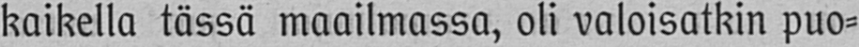kaikella tässä maailmassa, oli valoisatkin puo-
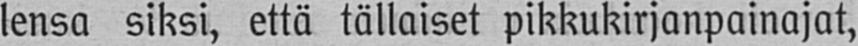lensa siksi, että tällaiset pikkukirjanpainajat,
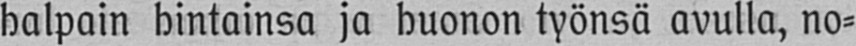halpain hintainsa ja huonon työnsä avulla, no-
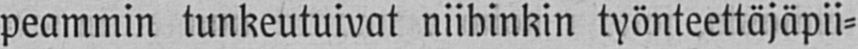peammin tunkeutuivat niihinkin työnteettäjäpii-
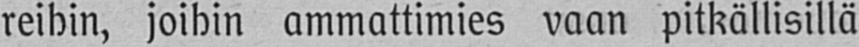reihin, joihin ammattimies vaan pitkällisillä
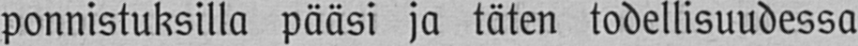ponnistuksilla pääsi ja täten todellisuudessa
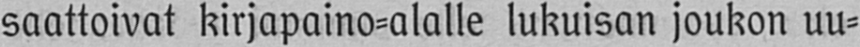saattoivat kirjapaino-alalle lukuisan joukon uu-
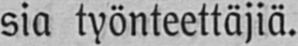sia työnteettäjiä.
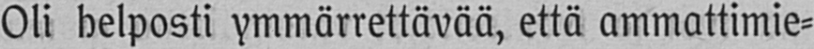Oli helposti ymmärrettävää, että ammattimie-
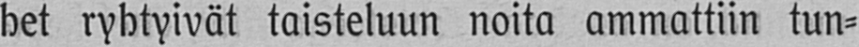het ryhtyivät taisteluun noita ammattiin tun-
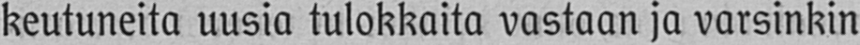keutuneita uusia tulokkaita vastaan ja varsinkin
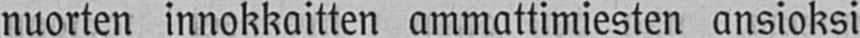nuorten innokkaitten ammattimiesten ansioksi
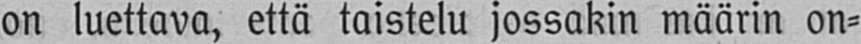on luettava, että taistelu jossakin määrin on-
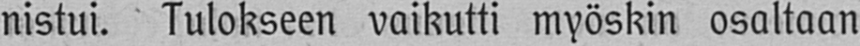nistui. Tulokseen vaikutti myöskin osaltaan
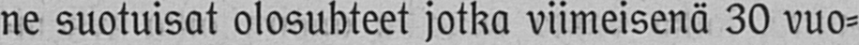ne suotuisat olosuhteet jotka viimeisenä 30 vuo-
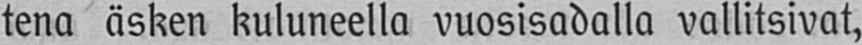tena äsken kuluneella vuosisadalla vallitsivat,
